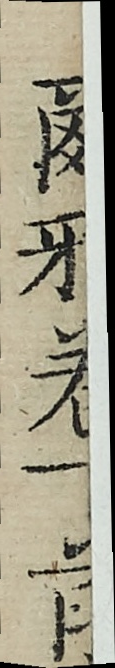爾雅卷下前
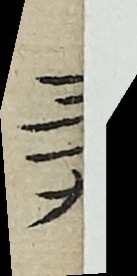三十九
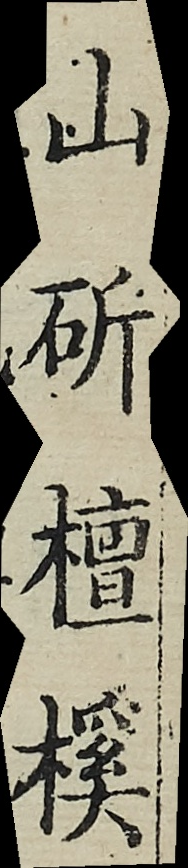山斫檀榽
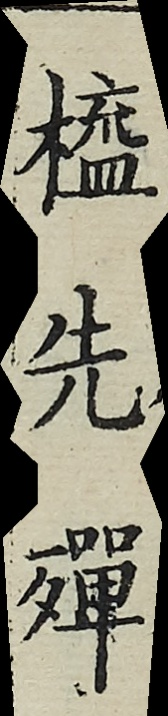橀先殫
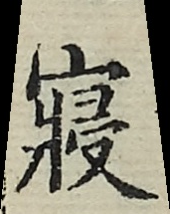寢
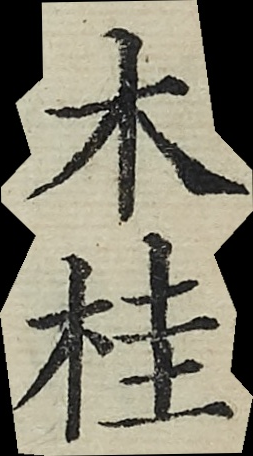木桂
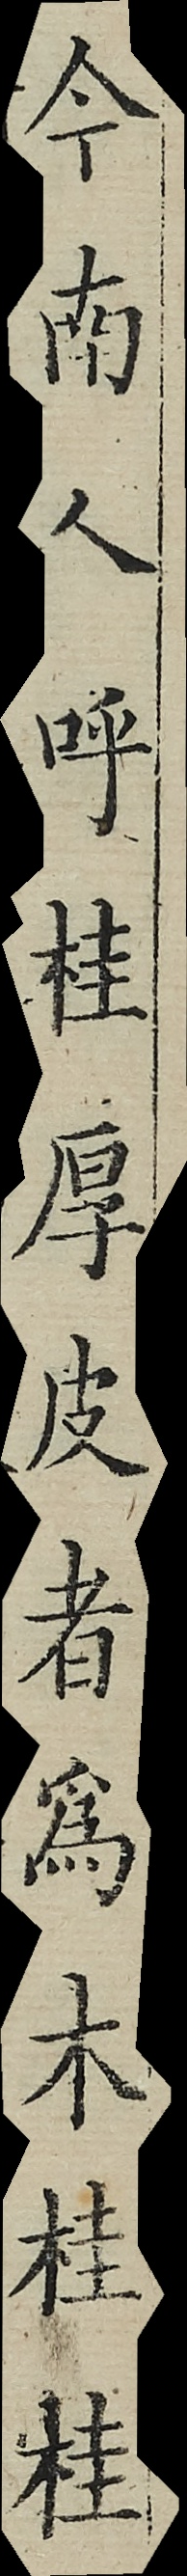今南人呼桂厚皮者為木桂桂
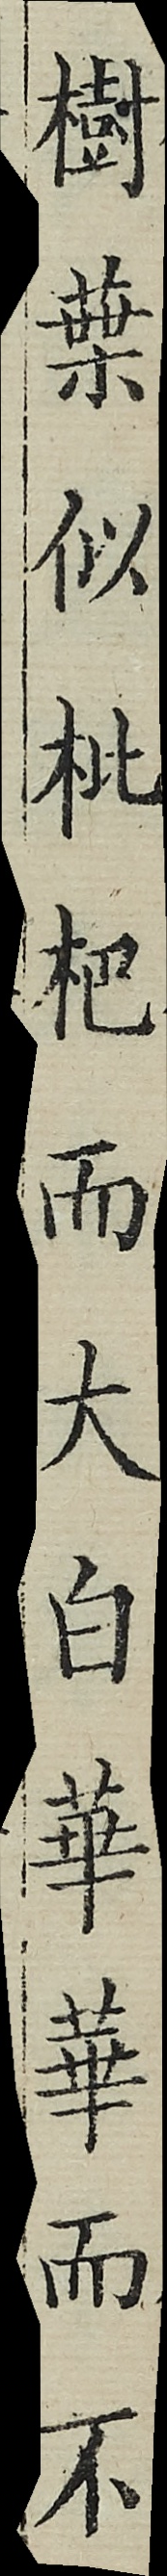樹葉似枇杷而大白華華而不
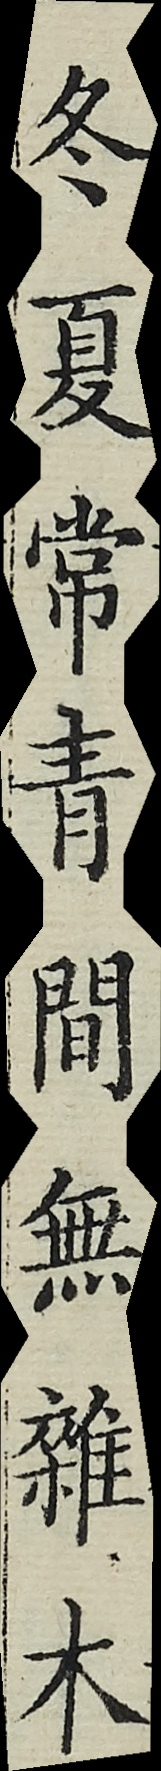冬夏常青間無雜木
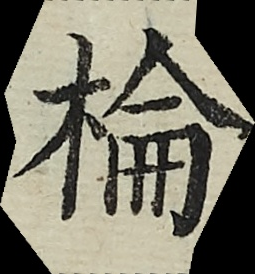棆
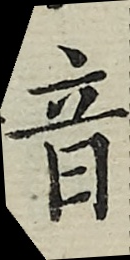音
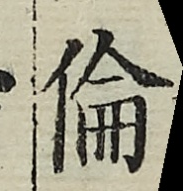倫
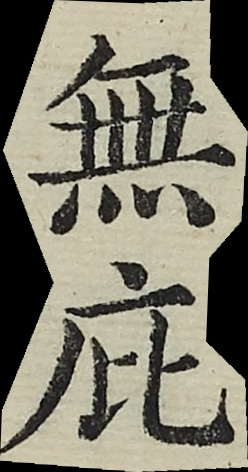無庇
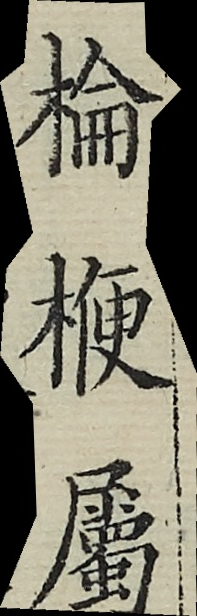棆楩屬
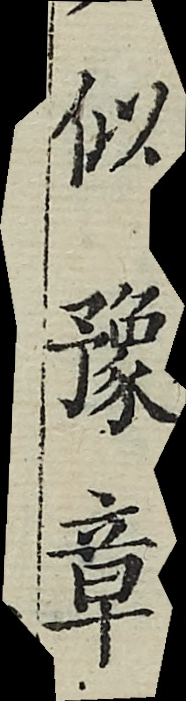似豫章
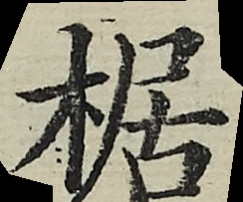椐
